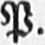P.
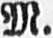M.
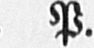. P.
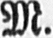M.
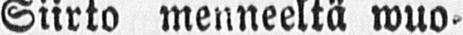Siirto menneeltä wuo-
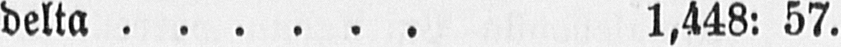delta 1,448: 57.
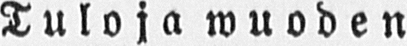Tuloja wuoden
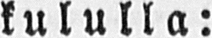kululla:
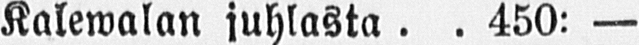Kalewalan juhlasta. . 450: —
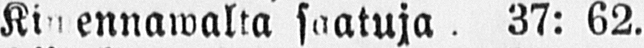Kiwennawalta saatuja , 37: 62.
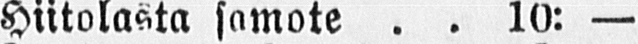Hiitolasta samote . . 10: —
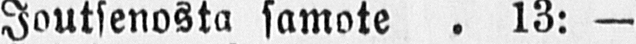Joutsenosta samote . 13: —
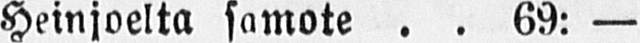Heinjoelta samote 69: —
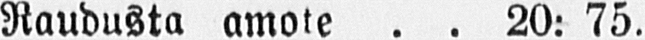Raudusta amote 20: 75.
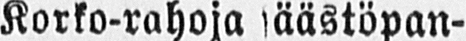Korko-rahoja säästöpan-
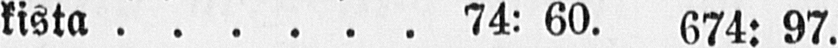kista 74:60. 674: 97.
